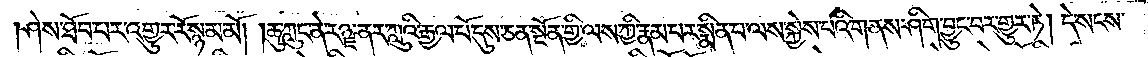ཤེས་ཐོབ་པར་འགྱུར་རོ་སྙམ་མོ། །ཆུ་ཀླུང་ནེ་རཉྫ་ནར་ཀླུའི་རྒྱལ་པོ་དུས་ཅན་སྔོན་གྱི་ལས་ཀྱི་རྣམ་པར་སྨིན་པ་ལས་སྐྱེས་པའི་གནས་ཤིག་བྱུང་བར་གྱུར་ཏེ། དེ་སངས་
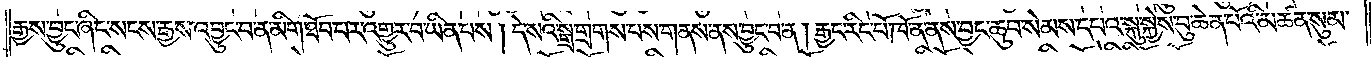རྒྱས་བྱུང་ཞིང་སངས་རྒྱས་འབྱུང་བ་ན་མིག་ཐོབ་པར་འགྱུར་བ་ཡིན་པས། དེ་སའི་སྒྲ་གྲགས་པས་གནས་ནས་བྱུང་བ་ན། རྒྱང་རིང་པོ་ཁོ་ན་ནས་བྱང་ཆུབ་སེམས་དཔའ་སྐུ་སྐྱེས་བུ་ཆེན་པོའི་མཚན་སུམ་
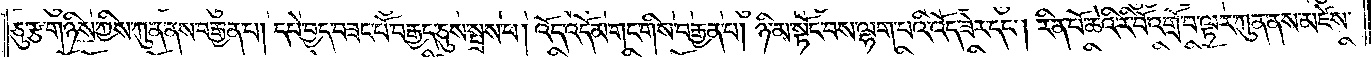ཅུ་རྩ་གཉིས་ཀྱིས་ཀུན་ནས་བརྒྱན་པ། དཔེ་བྱད་བཟང་པོ་བརྒྱད་ཅུས་སྤྲས་པ། འོད་འདོམ་གང་གིས་བརྒྱན་པ། ཉི་མ་སྟོང་བས་ལྷག་པའི་འོད་ཟེར་དང༌། རིན་པོ་ཆེའི་རི་བོ་འགྲོ་བ་ལྟར་ཀུན་ནས་མཛེས་
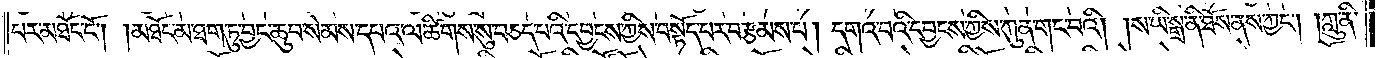པར་མཐོང་ངོ༌། །མཐོང་མ་ཐག་ཏུ་བྱང་ཆུབ་སེམས་དཔའ་ལ་ཚིགས་སུ་བཅད་པའི་དབྱངས་ཀྱིས་བསྟོད་པར་བརྩམས་པ། དགའ་བའི་དབྱངས་ཀྱིས་ཀུན་གང་བའི། །ས་ཡི་སྒྲ་ནི་ཐོས་ནས་ཀྱང༌། །ཀླུ་ནི་
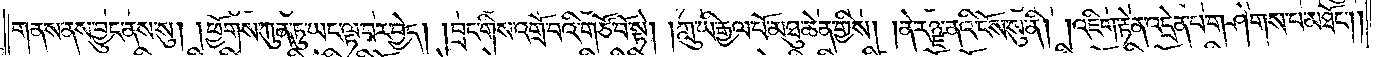གནས་ནས་བྱུང་ནས་སུ། །ཕྱོགས་ཀུན་ཏུ་ཡང་ལྟ་བར་བྱེད། །བྲང་གིས་འགྲོ་བའི་གཙོ་བོ་སྟེ། །ཀླུ་ཡི་རྒྱལ་པོ་མཐུ་ཆེན་གྱིས། །ནེ་རཉྫ་ནའི་ངོས་སུ་ནི། །འཇིག་རྟེན་འདྲེན་པ་གཤེགས་པ་མཐོང༌།
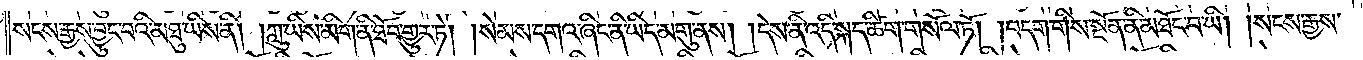སངས་རྒྱས་བྱུང་བའི་མཐུ་ཡིས་ནི། །ཀླུ་ཡིས་མིག་ནི་ཐོབ་གྱུར་ཏེ། །སེམས་དགའ་ཞིང་ནི་ཡིད་མགུ་ནས། །དེས་ནི་འདི་སྐད་ཚིག་གསོལ་ཏོ། །བདག་གིས་སྔོན་ནི་མཐོང་བ་ཡི། །སངས་རྒྱས་
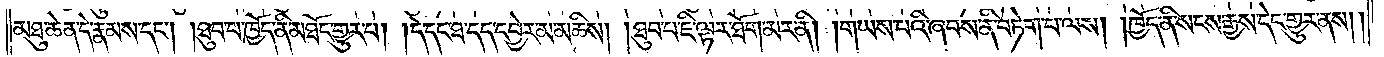མཐུ་ཆེན་དེ་རྣམས་དང༌། །ཐུབ་པ་ཁྱོད་ནི་མཐོང་གྱུར་པ། །དེ་དང་ཐ་དད་དབྱེར་མ་མཆིས། །ཐུབ་བ་ཇི་ལྟར་ཐོག་མར་ནི། །གཡས་པའི་ཞབས་ནི་བཏེག་པ་ལས། །ཁྱོད་ནི་སངས་རྒྱས་དེང་གྱུར་ནས༎
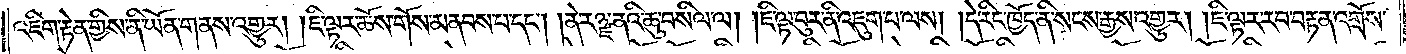འཇིག་རྟེན་གྱིས་ནི་ཡོན་གནས་འགྱུར། །ཇི་ལྟར་ཆོས་གོས་མནབས་པ་དང༌། །ནེ་རཉྫ་ནའི་ཆུ་བསིལ་ལ། །ཇི་ལྟ་བུར་ནི་འཇུག་པ་ལས། །དེ་རིང་ཁྱོད་ནི་སངས་རྒྱས་འགྱུར། །ཇི་ལྟར་རབ་བརྟན་འགྲོས་
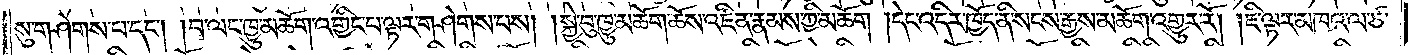སུ་གཤེགས་པ་དང༌། །བ་ལང་ཁྱུ་མཆོག་འགྱིང་བ་ལྟར་གཤེགས་པས། །སྐྱེས་བུ་ཁྱུ་མཆོག་ཆོས་འཛིན་རྣམས་ཀྱི་མཆོག །དེང་འདིར་ཁྱོད་ནི་སངས་རྒྱས་མཆོག་འགྱུར་རོ། །ཇི་ལྟར་མཁའ་ལ་ཙ་
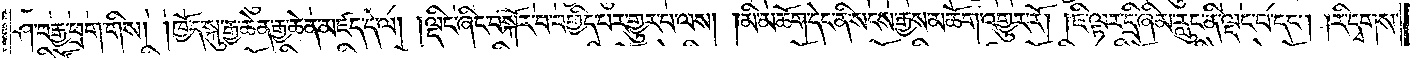ཤ་བརྒྱ་ཕྲག་གིས། །ཁྱོད་སྐུ་རྒྱ་ཆེན་རྒྱ་ཆེན་མཛད་དེ་ལ། །ལྡིང་ཞིང་བསྐོར་བ་བགྱིད་པར་གྱུར་པ་ལས། །མི་མཆོག་དེང་ནི་སངས་རྒྱས་མཆོག་འགྱུར་རོ། །ཇི་ལྟར་དྲི་ཞི་མ་རླུང་ནི་ལྡང་བ་དང༌། །རི་དྭགས་
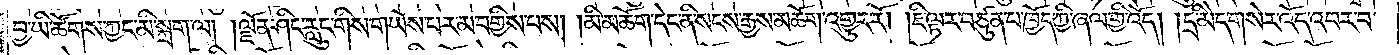བྱ་ཡི་ཚོགས་ཀྱང་མི་སྐྲག་ལ། །ལྗོན་ཤིང་རླུང་གིས་གཡོས་པར་མ་བགྱིས་པས། །མི་མཆོག་དེང་ནི་སངས་རྒྱས་མཆོག་འགྱུར་རོ། །ཇི་ལྟར་བཙུན་པ་ཁྱོད་ཀྱི་ཞལ་གྱི་འོད། །དྲི་མེད་གསེར་འོད་འབར་བ་
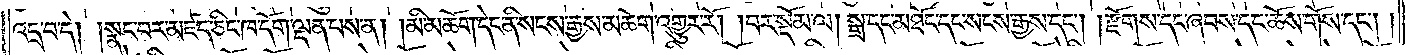འདྲ་བ་དེ། །སྣང་བར་མཛད་ཅིང་ཁ་དོག་ལྡན་པས་ན། །མི་མཆོག་དེང་ནི་སངས་རྒྱས་མཆོག་འགྱུར་རོ། །བར་སྡོམ་ལ། སྒྲ་དང་མཐོང་དང་སངས་རྒྱས་དང༌། །རྫོགས་དང་ཞབས་དང་ཆོས་གོས་དང༌། །
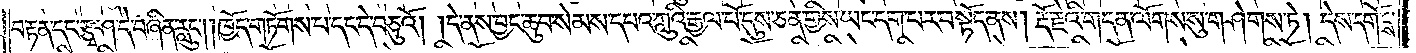བརྟན་དང་རྩྭ་ཤ་དེ་བཞིན་རླུང༌། །ཁྱོད་གཏོགས་པ་དང་དེ་བཅུའོ། །དེ་ནས་བྱང་ཆུབ་སེམས་དཔའ་ཀླུའི་རྒྱལ་པོ་དུས་ཅན་གྱིས་ཡང་དག་པར་བསྟོད་ནས། རྡོ་རྗེའི་གདན་ལོགས་སུ་གཤེགས་ཏེ། དེས་དགོངས་
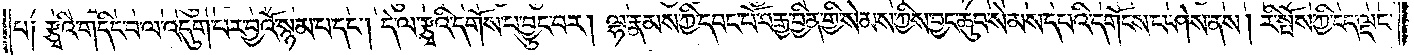པ། རྩྭའི་གདིང་བ་ལ་འདུག་པར་བྱའོ་སྙམ་པ་དང༌། དེ་ལ་རྩྭའི་དགོས་པ་བྱུང་བར། ལྷ་རྣམས་ཀྱི་དབང་པོ་བརྒྱ་བྱིན་གྱི་སེམས་ཀྱིས་བྱང་ཆུབ་སེམས་དཔའི་དགོངས་པ་ཤེས་ནས། རི་སྤོས་ཀྱི་ངད་ལྡང་
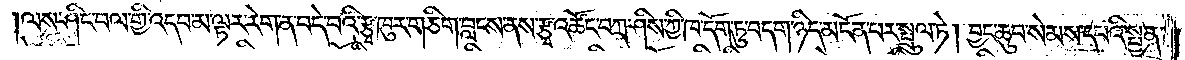ལས་ཤིང་བལ་གྱི་འདབ་མ་ལྟར་རེག་ན་བདེ་བའི་རྩྭ་ཁུར་གཅིག་བླངས་ནས་རྩྭ་འཚོང་བཀྲ་ཤིས་ཀྱི་ཁ་དོག་ཏུ་བདག་ཉིད་མངོན་པར་སྤྲུལ་ཏེ། བྱང་ཆུབ་སེམས་དཔའི་སྤྱན་
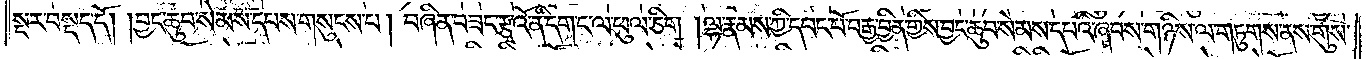སྔར་བསྡད་དོ། །བྱང་ཆུབ་སེམས་དཔས་གསུངས་པ། བཞིན་བཟང་རྩྭའི་ནི་དག་ང་ལ་ཕུལ་ཅིག །ལྷ་རྣམས་ཀྱི་དབང་པོ་བརྒྱ་བྱིན་གྱིས་བྱང་ཆུབ་སེམས་དཔའི་ཞབས་གཉིས་ལ་གཏུགས་ནས་གུས་
